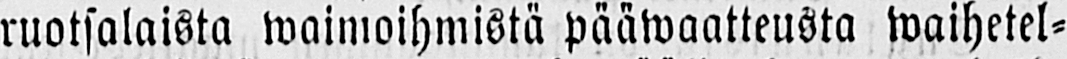ruotsalaista waimoihmistä pääwaatteusta waihetel-
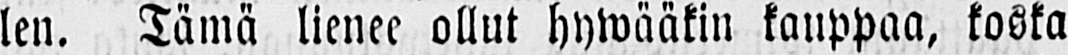len. Tämä lienee ollut hywääkin kauppaa, koska
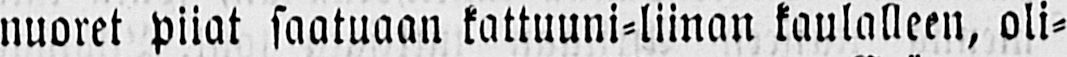nuoret piiat saatuaan kattuuni-liinan kaulalleen, oli-
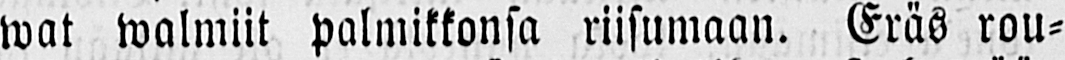wat walmiit palmikkonsa riisumaan. Eräs rou-
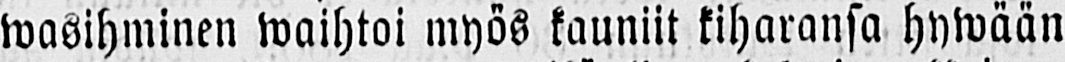wasihminen waihtoi myös kauniit kiharansa hywään
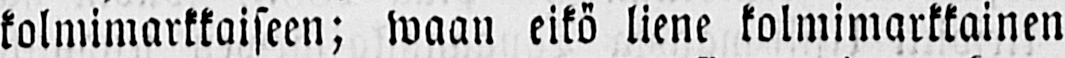kolmimarkkaiseen; waan eikö liene kolmimarkkainen
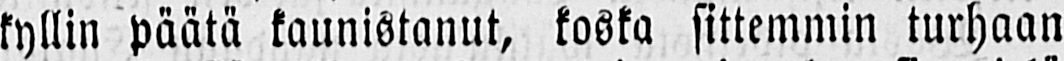kyllin päätä kaunistanut, kosko sittemmin turhaan
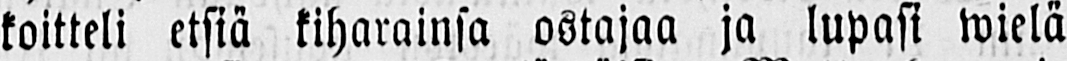koitteli etsiä kiharainsa ostajaa ja lupasi wielä
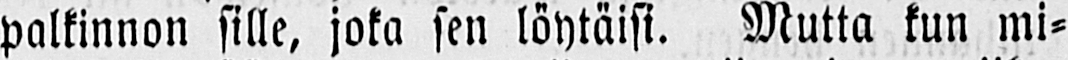palkinnon sille, joka sen löytäisi. Mutta kun mi-
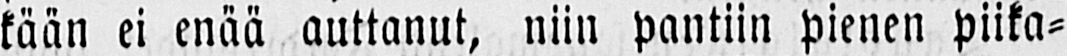kään ei enää auttanut, niin pantiin pienen piika-
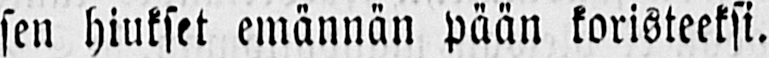sen hiukset emännän pään koristeeksi.
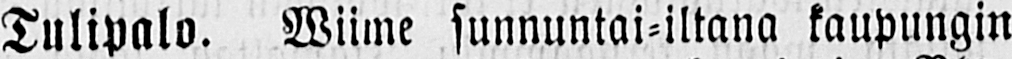Tulipalo. Wiime sunnuntai-iltana kaupungin
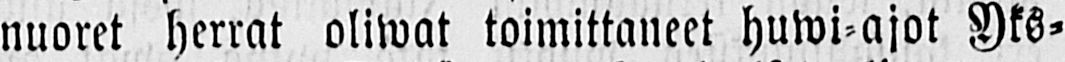nuoret herrat oliwat toimittaneet huwi-ajot Yks-
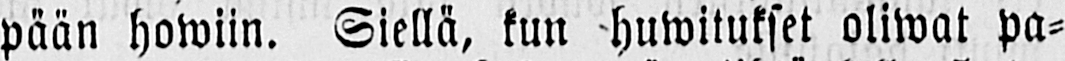pään Howiin. Siellä, kun huwitukset oliwat pa-
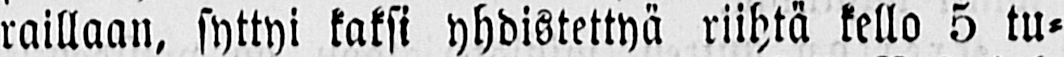raillaan, syttyi kaksi yhdistettyä riihtä kello 5 tu-
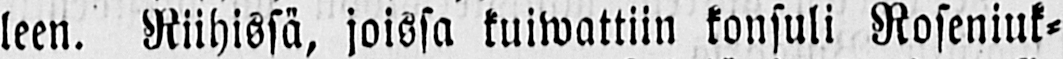leen. Riihissä, joissa kuiwattiin konsuli Roseniuk-
